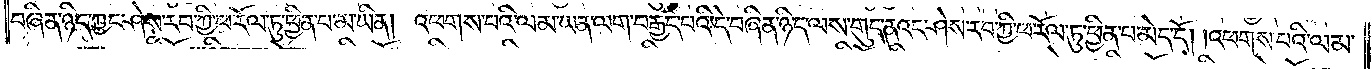བཞིན་ཉིད་ཀྱང་ཤེས་རབ་ཀྱི་ཕ་རོལ་ཏུ་ཕྱིན་པ་མ་ཡིན། འཕགས་པའི་ལམ་ཡན་ལག་བརྒྱད་པའི་དེ་བཞིན་ཉིད་ལས་གུད་ནའང་ཤེས་རབ་ཀྱི་ཕ་རོལ་ཏུ་ཕྱིན་པ་མེད་དོ། །འཕགས་པའི་ལམ་
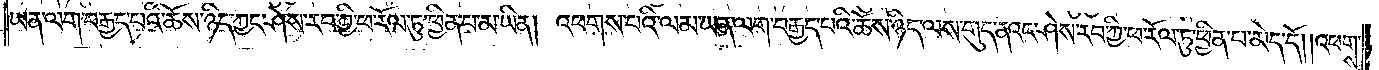ཡན་ལག་བརྒྱད་པའི་ཆོས་ཉིད་ཀྱང་ཤེས་རབ་ཀྱི་ཕ་རོལ་ཏུ་ཕྱིན་པ་མ་ཡིན། འཕགས་པའི་ལམ་ཡན་ལག་བརྒྱད་པའི་ཆོས་ཉིད་ལས་གུད་ནའང་ཤེས་རབ་ཀྱི་ཕ་རོལ་ཏུ་ཕྱིན་པ་མེད་དོ། །འཕགས་
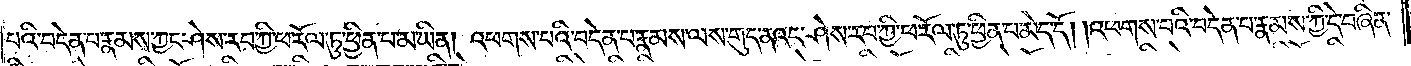པའི་བདེན་པ་རྣམས་ཀྱང་ཤེས་རབ་ཀྱི་ཕ་རོལ་ཏུ་ཕྱིན་པ་མ་ཡིན། འཕགས་པའི་བདེན་པ་རྣམས་ལས་གུད་ནའང་ཤེས་རབ་ཀྱི་ཕ་རོལ་ཏུ་ཕྱིན་པ་མེད་དོ། །འཕགས་པའི་བདེན་པ་རྣམས་ཀྱི་དེ་བཞིན་
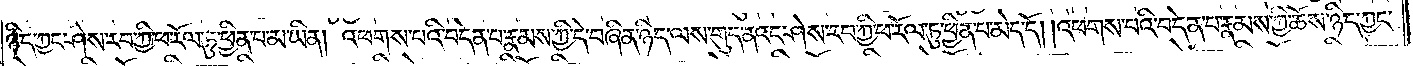ཉིད་ཀྱང་ཤེས་རབ་ཀྱི་ཕ་རོལ་ཏུ་ཕྱིན་པ་མ་ཡིན། འཕགས་པའི་བདེན་པ་རྣམས་ཀྱི་དེ་བཞིན་ཉིད་ལས་གུད་ནའང་ཤེས་རབ་ཀྱི་ཕ་རོལ་ཏུ་ཕྱིན་པ་མེད་དོ། །འཕགས་པའི་བདེན་པ་རྣམས་ཀྱི་ཆོས་ཉིད་ཀྱང་
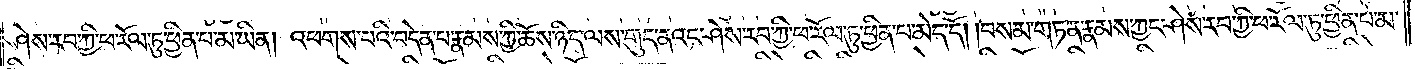ཤེས་རབ་ཀྱི་ཕ་རོལ་ཏུ་ཕྱིན་པ་མ་ཡིན། འཕགས་པའི་བདེན་པ་རྣམས་ཀྱི་ཆོས་ཉིད་ལས་གུད་ནའང་ཤེས་རབ་ཀྱི་ཕ་རོལ་ཏུ་ཕྱིན་པ་མེད་དོ། །བསམ་གཏན་རྣམས་ཀྱང་ཤེས་རབ་ཀྱི་ཕ་རོལ་ཏུ་ཕྱིན་པ་མ་
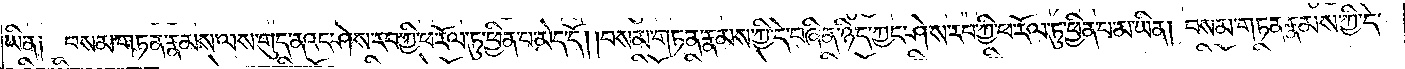ཡིན། བསམ་གཏན་རྣམས་ལས་གུད་ནའང་ཤེས་རབ་ཀྱི་ཕ་རོལ་ཏུ་ཕྱིན་པ་མེད་དོ། །བསམ་གཏན་རྣམས་ཀྱི་དེ་བཞིན་ཉིད་ཀྱང་ཤེས་རབ་ཀྱི་ཕ་རོལ་ཏུ་ཕྱིན་པ་མ་ཡིན། བསམ་གཏན་རྣམས་ཀྱི་དེ་
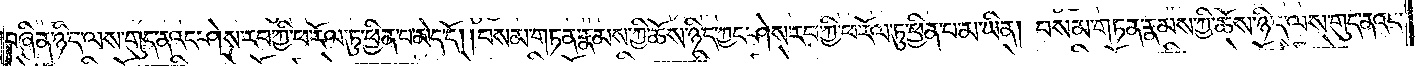བཞིན་ཉིད་ལས་གུད་ནའང་ཤེས་རབ་ཀྱི་ཕ་རོལ་ཏུ་ཕྱིན་པ་མེད་དོ། །བསམ་གཏན་རྣམས་ཀྱི་ཆོས་ཉིད་ཀྱང་ཤེས་རབ་ཀྱི་ཕ་རོལ་ཏུ་ཕྱིན་པ་མ་ཡིན། བསམ་གཏན་རྣམས་ཀྱི་ཆོས་ཉིད་ལས་གུད་ནའང་
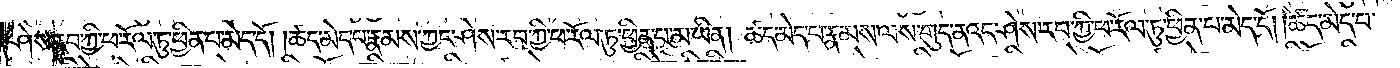ཤེས་རབ་ཀྱི་ཕ་རོལ་ཏུ་ཕྱིན་པ་མེད་དོ། །ཚད་མེད་པ་རྣམས་ཀྱང་ཤེས་རབ་ཀྱི་ཕ་རོལ་ཏུ་ཕྱིན་པ་མ་ཡིན། ཚད་མེད་པ་རྣམས་ལས་གུད་ནའང་ཤེས་རབ་ཀྱི་ཕ་རོལ་ཏུ་ཕྱིན་པ་མེད་དོ། །ཚད་མེད་པ་
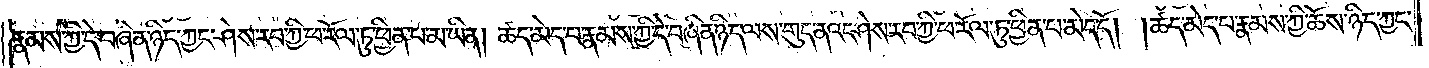རྣམས་ཀྱི་དེ་བཞིན་ཉིད་ཀྱང་ཤེས་རབ་ཀྱི་ཕ་རོལ་ཏུ་ཕྱིན་པ་མ་ཡིན། ཚད་མེད་པ་རྣམས་ཀྱི་དེ་བཞིན་ཉིད་ལས་གུད་ནའང་ཤེས་རབ་ཀྱི་ཕ་རོལ་ཏུ་ཕྱིན་པ་མེད་དོ། །ཚད་མེད་པ་རྣམས་ཀྱི་ཆོས་ཉིད་ཀྱང་
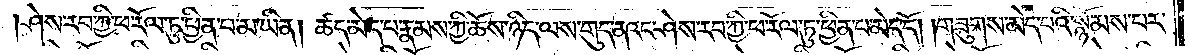ཤེས་རབ་ཀྱི་ཕ་རོལ་ཏུ་ཕྱིན་པ་མ་ཡིན། ཚད་མེད་པ་རྣམས་ཀྱི་ཆོས་ཉིད་ལས་གུད་ནའང་ཤེས་རབ་ཀྱི་ཕ་རོལ་ཏུ་ཕྱིན་པ་མེད་དོ། །གཟུགས་མེད་པའི་སྙོམས་པར་
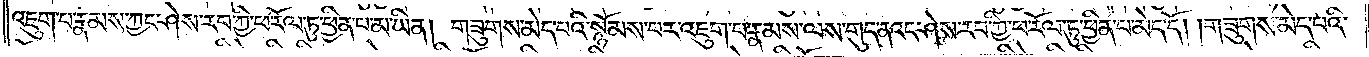འཇུག་པ་རྣམས་ཀྱང་ཤེས་རབ་ཀྱི་ཕ་རོལ་ཏུ་ཕྱིན་པ་མ་ཡིན། གཟུགས་མེད་པའི་སྙོམས་པར་འཇུག་པ་རྣམས་ལས་གུད་ནའང་ཤེས་རབ་ཀྱི་ཕ་རོལ་ཏུ་ཕྱིན་པ་མེད་དོ། །གཟུགས་མེད་པའི་
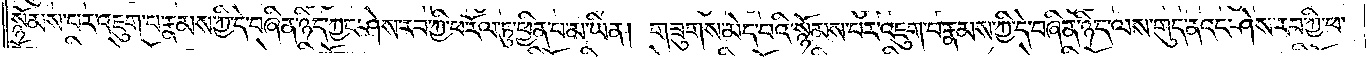སྙོམས་པར་འཇུག་པ་རྣམས་ཀྱི་དེ་བཞིན་ཉིད་ཀྱང་ཤེས་རབ་ཀྱི་ཕ་རོལ་ཏུ་ཕྱིན་པ་མ་ཡིན། གཟུགས་མེད་པའི་སྙོམས་པར་འཇུག་པ་རྣམས་ཀྱི་དེ་བཞིན་ཉིད་ལས་གུད་ནའང་ཤེས་རབ་ཀྱི་ཕ་
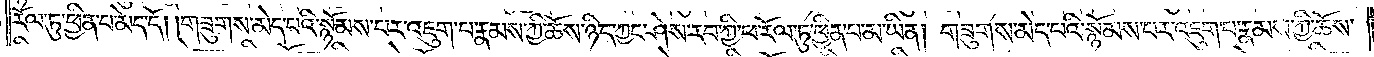རོལ་ཏུ་ཕྱིན་པ་མེད་དོ། །གཟུགས་མེད་པའི་སྙོམས་པར་འཇུག་པ་རྣམས་ཀྱི་ཆོས་ཉིད་ཀྱང་ཤེས་རབ་ཀྱི་ཕ་རོལ་ཏུ་ཕྱིན་པ་མ་ཡིན། གཟུགས་མེད་པའི་སྙོམས་པར་འཇུག་པ་རྣམས་ཀྱི་ཆོས་
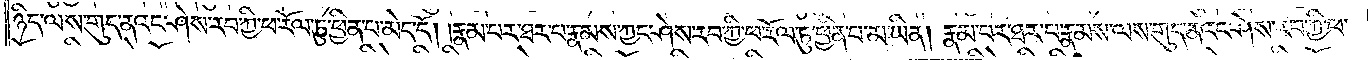ཉིད་ལས་གུད་ནའང་ཤེས་རབ་ཀྱི་ཕ་རོལ་ཏུ་ཕྱིན་པ་མེད་དོ། །རྣམ་པར་ཐར་པ་རྣམས་ཀྱང་ཤེས་རབ་ཀྱི་ཕ་རོལ་ཏུ་ཕྱིན་པ་མ་ཡིན། རྣམ་པར་ཐར་པ་རྣམས་ལས་གུད་ནའང་ཤེས་རབ་ཀྱི་ཕ་
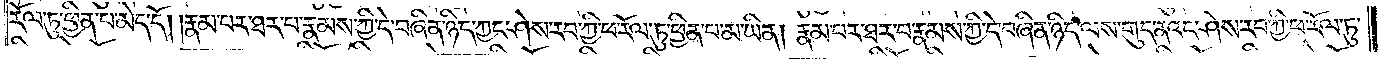རོལ་ཏུ་ཕྱིན་པ་མེད་དོ། །རྣམ་པར་ཐར་པ་རྣམས་ཀྱི་དེ་བཞིན་ཉིད་ཀྱང་ཤེས་རབ་ཀྱི་ཕ་རོལ་ཏུ་ཕྱིན་པ་མ་ཡིན། རྣམ་པར་ཐར་པ་རྣམས་ཀྱི་དེ་བཞིན་ཉིད་ལས་གུད་ནའང་ཤེས་རབ་ཀྱི་ཕ་རོལ་ཏུ་
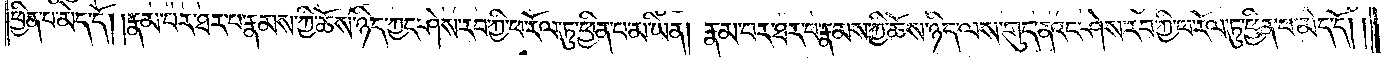ཕྱིན་པ་མེད་དོ། །རྣམ་པར་ཐར་པ་རྣམས་ཀྱི་ཆོས་ཉིད་ཀྱང་ཤེས་རབ་ཀྱི་ཕ་རོལ་ཏུ་ཕྱིན་པ་མ་ཡིན། རྣམ་པར་ཐར་པ་རྣམས་ཀྱི་ཆོས་ཉིད་ལས་གུད་ནའང་ཤེས་རབ་ཀྱི་ཕ་རོལ་ཏུ་ཕྱིན་པ་མེད་དོ། །
